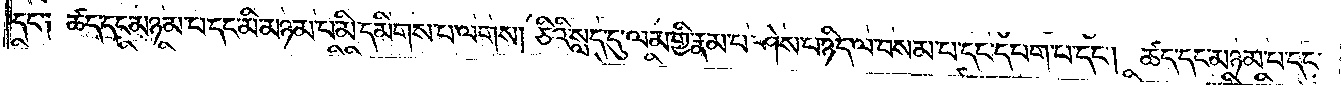དང༌༑ ཚད་དང་མཉམ་པ་དང་མི་མཉམ་པ་མི་དམིགས་པ་ལགས། ཅིའི་སླད་དུ་ལམ་གྱི་རྣམ་པ་ཤེས་པ་ཉིད་ལ་བསམ་པ་དང་དཔག་པ་དང༌། ཚད་དང་མཉམ་པ་དང་
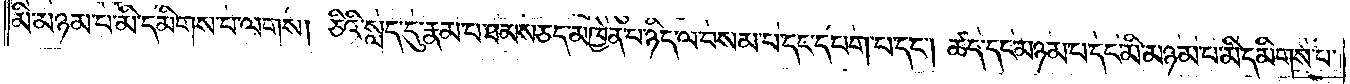མི་མཉམ་པ་མི་དམིགས་པ་ལགས། ཅིའི་སླད་དུ་རྣམ་པ་ཐམས་ཅད་མཁྱེན་པ་ཉིད་ལ་བསམ་པ་དང་དཔག་པ་དང༌། ཚད་དང་མཉམ་པ་དང་མི་མཉམ་པ་མི་དམིགས་པ་
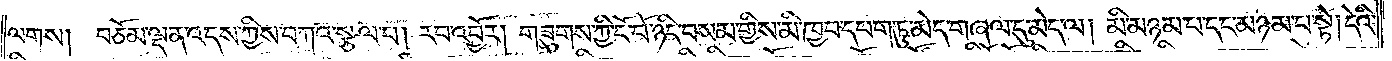ལགས། བཅོམ་ལྡན་འདས་ཀྱིས་བཀའ་སྩལ་པ། རབ་འབྱོར། གཟུགས་ཀྱི་ངོ་བོ་ཉིད་བསམ་གྱིས་མི་ཁྱབ་དཔག་ཏུ་མེད་གཞལ་དུ་མེད་ལ། མི་མཉམ་པ་དང་མཉམ་པ་སྟེ། དེའི་
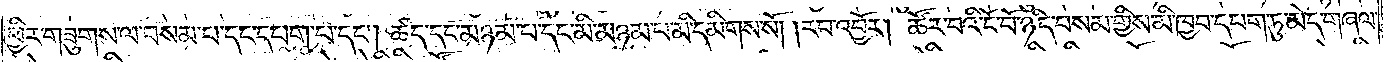ཕྱིར་གཟུགས་ལ་བསམ་པ་དང་དཔག་པ་དང༌། ཚད་དང་མཉམ་པ་དང་མི་མཉམ་པ་མི་དམིགས་སོ། །རབ་འབྱོར། ཚོར་བའི་ངོ་བོ་ཉིད་བསམ་གྱིས་མི་ཁྱབ་དཔག་ཏུ་མེད་གཞལ་
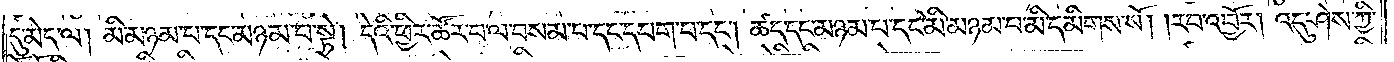དུ་མེད་ལ། མི་མཉམ་པ་དང་མཉམ་པ་སྟེ། དེའི་ཕྱིར་ཚོར་བ་ལ་བསམ་པ་དང་དཔག་པ་དང༌། ཚད་དང་མཉམ་པ་དང་མི་མཉམ་པ་མི་དམིགས་སོ། །རབ་འབྱོར། འདུ་ཤེས་ཀྱི་
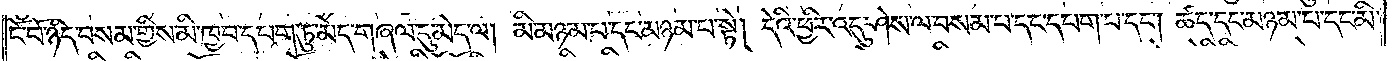ངོ་བོ་ཉིད་བསམ་གྱིས་མི་ཁྱབ་དཔག་ཏུ་མེད་གཞལ་དུ་མེད་ལ། མི་མཉམ་པ་དང་མཉམ་པ་སྟེ། དེའི་ཕྱིར་འདུ་ཤེས་ལ་བསམ་པ་དང་དཔག་པ་དང༌། ཚད་དང་མཉམ་པ་དང་མི་
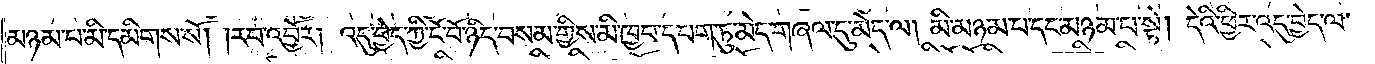མཉམ་པ་མི་དམིགས་སོ། །རབ་འབྱོར། འདུ་བྱེད་ཀྱི་ངོ་བོ་ཉིད་བསམ་གྱིས་མི་ཁྱབ་དཔག་ཏུ་མེད་གཞལ་དུ་མེད་ལ། མི་མཉམ་པ་དང་མཉམ་པ་སྟེ། དེའི་ཕྱིར་འདུ་བྱེད་ལ་
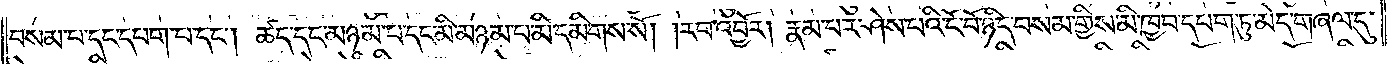བསམ་པ་དང་དཔག་པ་དང༌། ཚད་དང་མཉམ་པ་དང་མི་མཉམ་པ་མི་དམིགས་སོ། །རབ་འབྱོར། རྣམ་པར་ཤེས་པའི་ངོ་བོ་ཉིད་བསམ་གྱིས་མི་ཁྱབ་དཔག་ཏུ་མེད་གཞལ་དུ་
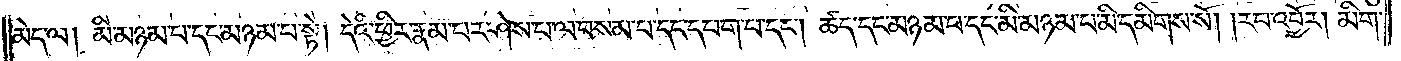མེད་ལ། མི་མཉམ་པ་དང་མཉམ་པ་སྟེ། དེའི་ཕྱིར་རྣམ་པར་ཤེས་པ་ལ་བསམ་པ་དང་དཔག་པ་དང༌། ཚད་དང་མཉམ་པ་དང་མི་མཉམ་པ་མི་དམིགས་སོ། །རབ་འབྱོར། མིག་
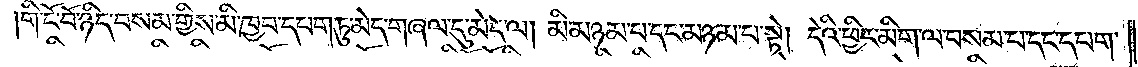གི་ངོ་བོ་ཉིད་བསམ་གྱིས་མི་ཁྱབ་དཔག་ཏུ་མེད་གཞལ་དུ་མེད་ལ། མི་མཉམ་པ་དང་མཉམ་པ་སྟེ། དེའི་ཕྱིར་མིག་ལ་བསམ་པ་དང་དཔག་
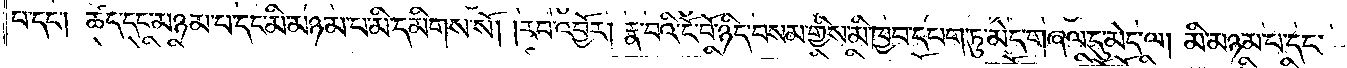པ་དང༌། ཚད་དང་མཉམ་པ་དང་མི་མཉམ་པ་མི་དམིགས་སོ། །རབ་འབྱོར། རྣ་བའི་ངོ་བོ་ཉིད་བསམ་གྱིས་མི་ཁྱབ་དཔག་ཏུ་མེད་གཞལ་དུ་མེད་ལ། མི་མཉམ་པ་དང་
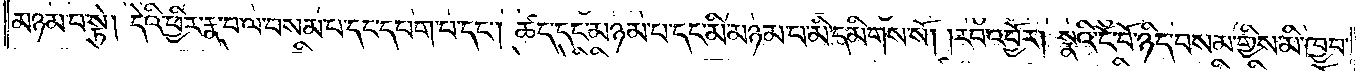མཉམ་པ་སྟེ། དེའི་ཕྱིར་རྣ་བ་ལ་བསམ་པ་དང་དཔག་པ་དང༌། ཚད་དང་མཉམ་པ་དང་མི་མཉམ་པ་མི་དམིགས་སོ། །རབ་འབྱོར། སྣའི་ངོ་བོ་ཉིད་བསམ་གྱིས་མི་ཁྱབ་
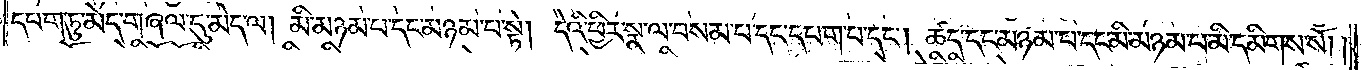དཔག་ཏུ་མེད་གཞལ་དུ་མེད་ལ། མི་མཉམ་པ་དང་མཉམ་པ་སྟེ། དེའི་ཕྱིར་སྣ་ལ་བསམ་པ་དང་དཔག་པ་དང༌། ཚད་དང་མཉམ་པ་དང་མི་མཉམ་པ་མི་དམིགས་སོ། །
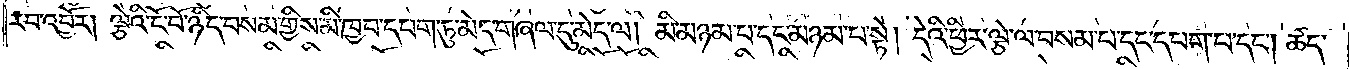རབ་འབྱོར། ལྕེའི་ངོ་བོ་ཉིད་བསམ་གྱིས་མི་ཁྱབ་དཔག་ཏུ་མེད་གཞལ་དུ་མེད་ལ། མི་མཉམ་པ་དང་མཉམ་པ་སྟེ། དེའི་ཕྱིར་ལྕེ་ལ་བསམ་པ་དང་དཔག་པ་དང༌། ཚད་
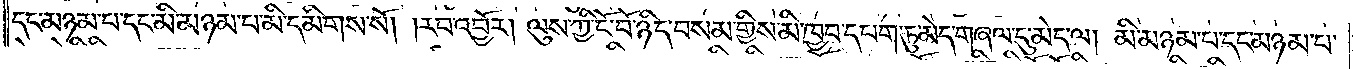དང་མཉམ་པ་དང་མི་མཉམ་པ་མི་དམིགས་སོ། །རབ་འབྱོར། ལུས་ཀྱི་ངོ་བོ་ཉིད་བསམ་གྱིས་མི་ཁྱབ་དཔག་ཏུ་མེད་གཞལ་དུ་མེད་ལ། མི་མཉམ་པ་དང་མཉམ་པ་
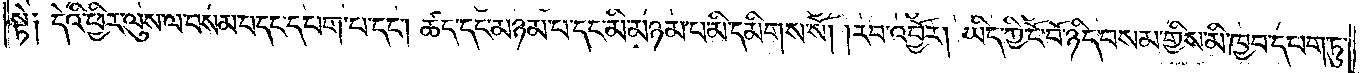སྟེ། དེའི་ཕྱིར་ལུས་ལ་བསམ་པ་དང་དཔག་པ་དང༌། ཚད་དང་མཉམ་པ་དང་མི་མཉམ་པ་མི་དམིགས་སོ། །རབ་འབྱོར། ཡིད་ཀྱི་ངོ་བོ་ཉིད་བསམ་གྱིས་མི་ཁྱབ་དཔག་ཏུ་
